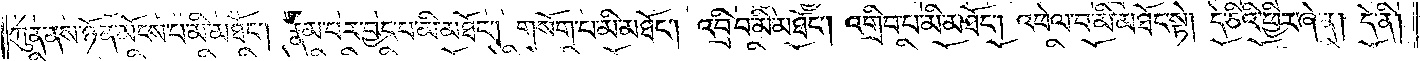ཀུན་ནས་ཉོན་མོངས་པ་མི་མཐོང༌། རྣམ་པར་བྱང་བ་མི་མཐོང༌། གསོག་པ་མི་མཐོང༌། འབྲི་བ་མི་མཐོང༌། འགྲིབ་པ་མི་མཐོང༌། འཕེལ་བ་མི་མཐོང་སྟེ། དེ་ཅིའི་ཕྱིར་ཞེ་ན། དེ་ནི།
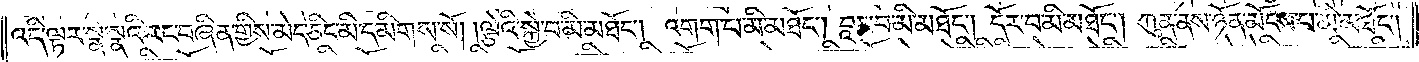འདི་ལྟར་སྣ་སྣའི་རང་བཞིན་གྱིས་མེད་ཅིང་མི་དམིགས་སོ། །ལྕེའི་སྐྱེ་བ་མི་མཐོང༌། འགག་པ་མི་མཐོང༌། བླང་བ་མི་མཐོང༌། དོར་བ་མི་མཐོང༌། ཀུན་ནས་ཉོན་མོངས་པ་མི་མཐོང༌།
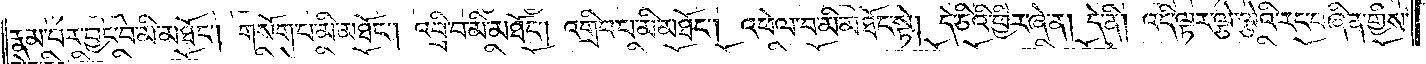རྣམ་པར་བྱང་བ་མི་མཐོང༌། གསོག་པ་མི་མཐོང༌། འབྲི་བ་མི་མཐོང༌། འགྲིབ་པ་མི་མཐོང༌། འཕེལ་བ་མི་མཐོང་སྟེ། དེ་ཅིའི་ཕྱིར་ཞེ་ན། དེ་ནི། འདི་ལྟར་ལྕེ་ལྕེའི་རང་བཞིན་གྱིས་
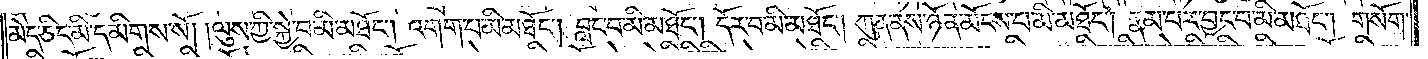མེད་ཅིང་མི་དམིགས་སོ། །ལུས་ཀྱི་སྐྱེ་བ་མི་མཐོང༌། འགག་པ་མི་མཐོང༌། བླང་བ་མི་མཐོང༌། དོར་བ་མི་མཐོང༌། ཀུན་ནས་ཉོན་མོངས་པ་མི་མཐོང༌། རྣམ་པར་བྱང་བ་མི་མཐོང༌། གསོག་
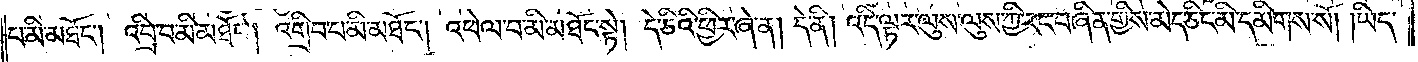པ་མི་མཐོང༌། འབྲི་བ་མི་མཐོང༌། འགྲིབ་པ་མི་མཐོང༌། འཕེལ་བ་མི་མཐོང་སྟེ། དེ་ཅིའི་ཕྱིར་ཞེ་ན། དེ་ནི། འདི་ལྟར་ལུས་ལུས་ཀྱི་རང་བཞིན་གྱིས་མེད་ཅིང་མི་དམིགས་སོ། །ཡིད་
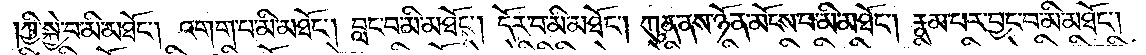ཀྱི་སྐྱེ་བ་མི་མཐོང༌། འགག་པ་མི་མཐོང༌། བླང་བ་མི་མཐོང༌། དོར་བ་མི་མཐོང༌། ཀུན་ནས་ཉོན་མོངས་པ་མི་མཐོང༌། རྣམ་པར་བྱང་བ་མི་མཐོང༌།
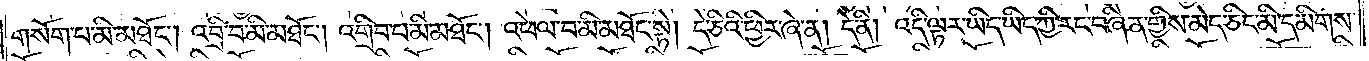གསོག་པ་མི་མཐོང༌། འབྲི་བ་མི་མཐོང༌། འགྲིབ་པ་མི་མཐོང༌། འཕེལ་བ་མི་མཐོང་སྟེ། དེ་ཅིའི་ཕྱིར་ཞེ་ན། དེ་ནི། འདི་ལྟར་ཡིད་ཡིད་ཀྱི་རང་བཞིན་གྱིས་མེད་ཅིང་མི་དམིགས་
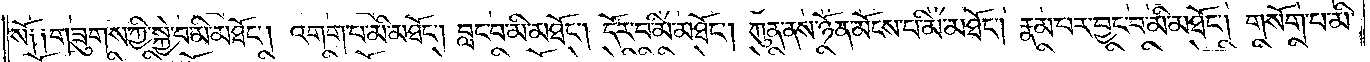སོ༑ ༑གཟུགས་ཀྱི་སྐྱེ་བ་མི་མཐོང༌། འགག་པ་མི་མཐོང༌། བླང་བ་མི་མཐོང༌། དོར་བ་མི་མཐོང༌། ཀུན་ནས་ཉོན་མོངས་པ་མི་མཐོང༌། རྣམ་པར་བྱང་བ་མི་མཐོང༌། གསོག་པ་མི་
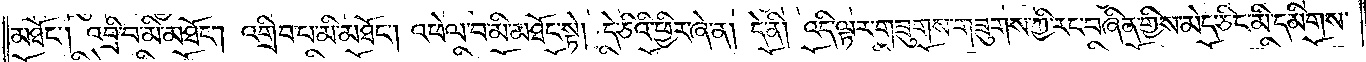མཐོང༌། འབྲི་བ་མི་མཐོང༌། འགྲིབ་པ་མི་མཐོང༌། འཕེལ་བ་མི་མཐོང་སྟེ། དེ་ཅིའི་ཕྱིར་ཞེ་ན། དེ་ནི། འདི་ལྟར་གཟུགས་གཟུགས་ཀྱི་རང་བཞིན་གྱིས་མེད་ཅིང་མི་དམིགས་
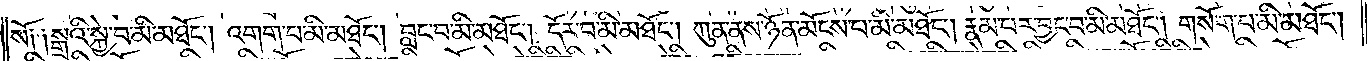སོ༏ ༏སྒྲའི་སྐྱེ་བ་མི་མཐོང༌། འགག་པ་མི་མཐོང༌། བླང་བ་མི་མཐོང༌། དོར་བ་མི་མཐོང༌། ཀུན་ནས་ཉོན་མོངས་པ་མི་མཐོང༌། རྣམ་པར་བྱང་བ་མི་མཐོང༌། གསོག་པ་མི་མཐོང༌།
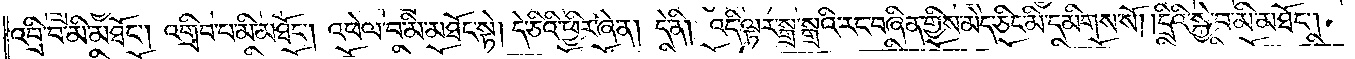འབྲི་བ་མི་མཐོང༌། འགྲིབ་པ་མི་མཐོང༌། འཕེལ་བ་མི་མཐོང་སྟེ། དེ་ཅིའི་ཕྱིར་ཞེ་ན། དེ་ནི། འདི་ལྟར་སྒྲ་སྒྲའི་རང་བཞིན་གྱིས་མེད་ཅིང་མི་དམིགས་སོ། །དྲིའི་སྐྱེ་བ་མི་མཐོང༌།
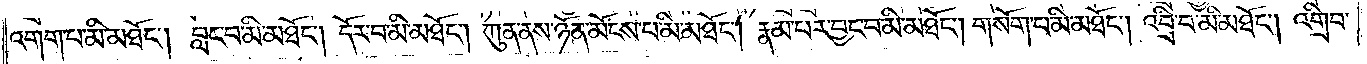འགག་པ་མི་མཐོང༌། བླང་བ་མི་མཐོང༌། དོར་བ་མི་མཐོང༌། ཀུན་ནས་ཉོན་མོངས་པ་མི་མཐོང༌། རྣམ་པར་བྱང་བ་མི་མཐོང༌། གསོག་པ་མི་མཐོང༌། འབྲི་བ་མི་མཐོང༌། འགྲིབ་
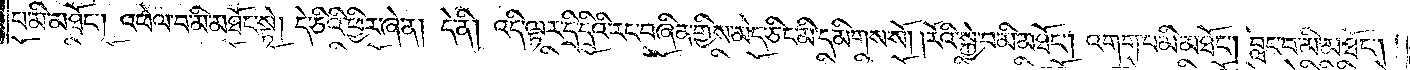པ་མི་མཐོང༌། འཕེལ་བ་མི་མཐོང་སྟེ། དེ་ཅིའི་ཕྱིར་ཞེ་ན། དེ་ནི། འདི་ལྟར་དྲི་དྲིའི་རང་བཞིན་གྱིས་མེད་ཅིང་མི་དམིགས་སོ། །རོའི་སྐྱེ་བ་མི་མཐོང༌། འགག་པ་མི་མཐོང༌། བླང་བ་མི་མཐོང༌།
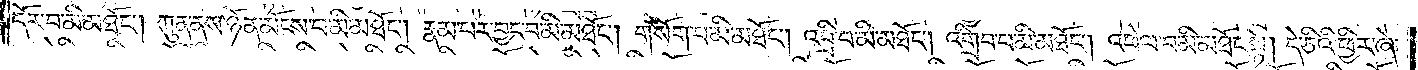དོར་བ་མི་མཐོང༌། ཀུན་ནས་ཉོན་མོངས་པ་མི་མཐོང༌། རྣམ་པར་བྱང་བ་མི་མཐོང༌། གསོག་པ་མི་མཐོང༌། འབྲི་བ་མི་མཐོང༌། འགྲིབ་པ་མི་མཐོང༌། འཕེལ་བ་མི་མཐོང་སྟེ། དེ་ཅིའི་ཕྱིར་ཞེ་
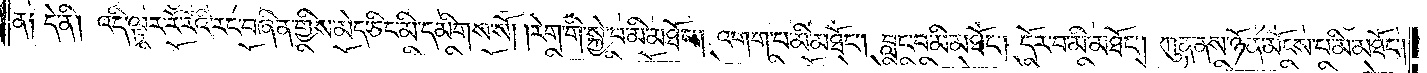ན༑ དེ་ནི། འདི་ལྟར་རོ་རོའི་རང་བཞིན་གྱིས་མེད་ཅིང་མི་དམིགས་སོ། །རེག་གི་སྐྱེ་བ་མི་མཐོང༌། འགག་པ་མི་མཐོང༌། བླང་བ་མི་མཐོང༌། དོར་བ་མི་མཐོང༌། ཀུན་ནས་ཉོན་མོངས་པ་མི་མཐོང༌།
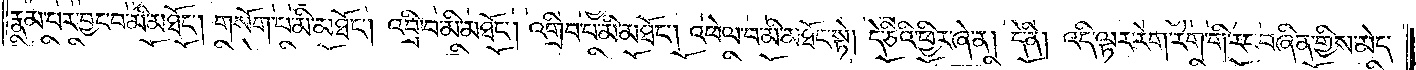རྣམ་པར་བྱང་བ་མི་མཐོང༌། གསོག་པ་མི་མཐོང༌། འབྲི་བ་མི་མཐོང༌། འགྲིབ་པ་མི་མཐོང༌། འཕེལ་བ་མི་མཐོང་སྟེ། དེ་ཅིའི་ཕྱིར་ཞེ་ན། དེ་ནི། འདི་ལྟར་རེག་རེག་གི་རང་བཞིན་གྱིས་མེད་
